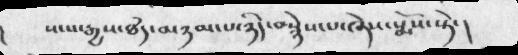།    སངས་རྒྱས་ཐཾད་མཉམ་པ་ཉིད་བསྙེས་པ་ཞེས་སྨོས་སྟེ་།
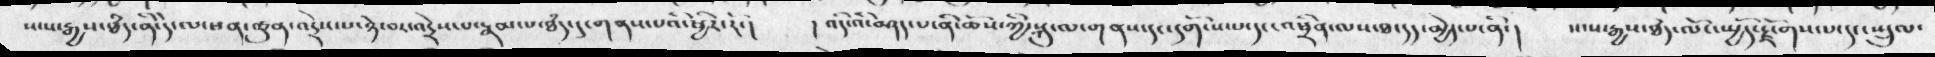སངས་རྒྱས་ཐཾད་ནི་དེ་ལ་ཕན་ཚུན་འདྲེས་པ་ཉེ་བར་འདྲེས་པ་རྣམ་པ་ཐཾད་དུ་གནས་པའི་ཕྱིར་རོ་།   །  འདིའི་བཤད་པ་ནི་ཆོས་ཀྱི་སྐུ་ལ་གནས་དང་དགོངས་པ་དང་འཕྲིན་ལས་ཐ་དད་མྱེད་པ་ནི་།   སངས་རྒྱས་ཐཾད་ལོང་སྤྱོད་རྫོགས་པ་དང་སྤྲུལ་
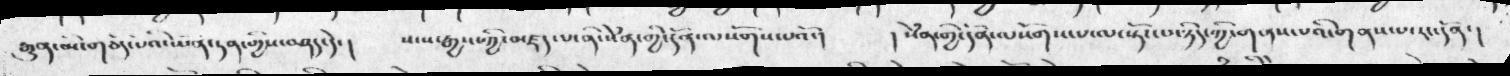རྒྱུན་མི་གཅོད་པའི་ཡོན་ཏན་གྱིས་བཤད་དེ་།  སངས་རྒྱས་ཀྱི་མཛད་པ་ནི་སེཾན་གྱི་དོན་ལསོགས་པའོ་།   ། སེཾན་གྱི་དོན་ལསོགས་པ་ལ་སྟོང་པ་ཉིད་ཀྱི་གནས་པའི་གནས་པ་རང་དོན་།
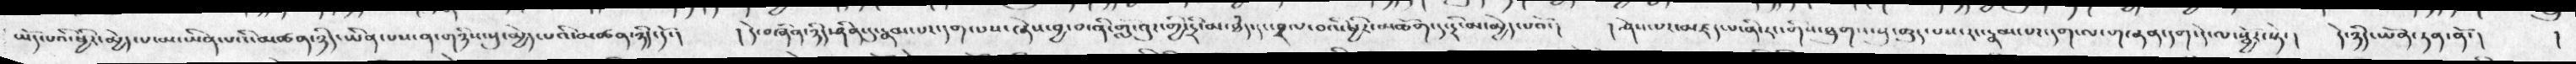ཡོད་པའི་ཕྱིར་མྱེད་པ་མ་ཡིན་པའི་མཚན་ཉིད་ཡིན་པས་ན་གཉིས་སུ་མྱེད་པའི་མཚན་ཉིད་དོ་།   ། དེ་བཞིན་ཉིད་ཤིན་དུ་རྣམ་པར་དག་པས་ཞེས་བྱ་བ་ནི་གློ་འུར་གྱི་དྲི་མ་ཐཾད་དང་བྲལ་བའི་ཕྱིར་མཆོག་དུ་དྲི་མ་མྱེད་པའོ་།  །ཤེས་པར་མཛད་པ་ནི་རང་གིས་ཐུགས་སུ་ཆུད་པས་རང་རྣམ་པར་དག་ལ་གཞན་དག་དེ་སྦྱོར་སྟེ་།   དེ་ཉིད་ཡོན་ཏན་ནོ་།    །
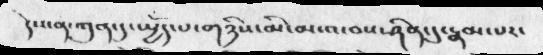དེས་ན་ཀུན་དུ་སྤྱོད་པ་གཉིས་མི་མངའ་བས་ཤིན་དུ་རྣམ་པར་
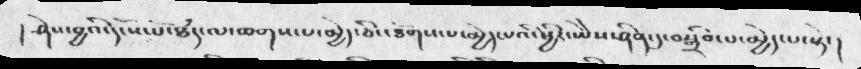།  ཤེས་བྱའི་དངོས་པོ་ཐཾད་ལ་ཆགས་པ་མྱེད་ཅིང་ཐོགས་པ་མྱེད་པའི་ཕྱིར་ཡེེས་ཤིན་དུ་བསྒྲིབ་པ་མྱེད་པ་སྟེ་།
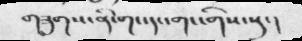གཟུགས་ནི་གང་དང་གང་གིས་སུ་།
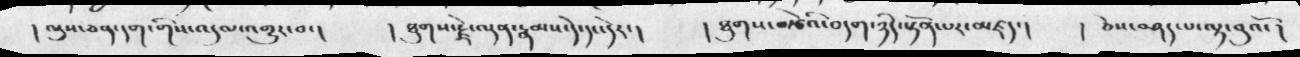། ལུས་ཅན་དག་གིས་འདུལ་འགྱུར་བ་།   ། ཐུགས་རྗེ་ལྡན་རྣམས་དེ་དང་དེར་།   ། ཐུགས་བརྩེའི་བདག་ཉིད་སྟོན་པར་མཛད་།   །  ཅེས་བཤད་པ་ལྟ་བུའོ་།
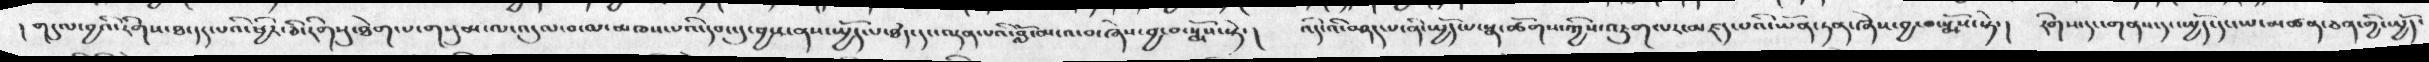།  གདུལ་བྱའི་རིགས་ཐ་དད་པའི་ཕྱིར་ཅི་རིགསུ་ཐེག་པ་གསུམ་ལ་འདུལ་བ་མ་མཁས་པའི་དབང་དུ་བྱས་ནས་སྤྱོད་པ་ཐྃད་དང་ལྡན་པའི་བློ་མངའ་བ་ཞེས་བྱ་བ་སྨོས་སྟེ་།  འདི་འི་བཤད་པ་ནི་སྤྱོད་པ་སྣ་ཚོགས་ཀྱིས་འཇུག་པར་མཛད་པའི་ཡོན་ཏན་ཞེས་བྱ་བ་སྨོས་སྟེ་།   རིགས་དང་གནས་དང་སྤྱོད་དང་ཡ་མཚན་ཅན་གྱི་སྤྱོད་
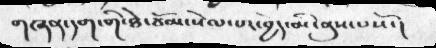གཞན་དག་གི་ཐེ་ཚོམ་སེལ་པར་བྱེད་མི་ནུས་པསོ་།
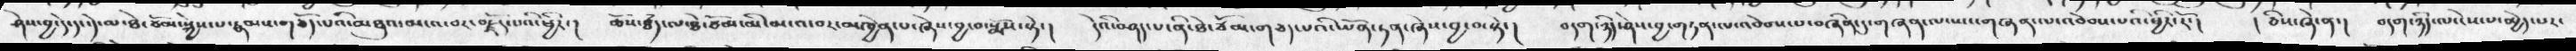ཤེས་བྱ་དེ་དང་དེ་ལ་ཐེ་ཚོམ་སྐྱེས་པ་རྣམས་གཅོད་པའི་མཐུའ་མངའ་བར་བརྗོད་པའི་ཕྱིར་།   ཆོས་ཐཾད་ལ་ཐེ་ཚོམ་མི་མངའ་བར་མཁྱེན་པ་ཞེས་བྱ་བ་སྨོས་སྟེ་།    དེའི་ནད་པ་ནི་ཐེ་ཚོམ་གཅད་པའི་ཡོན་ཏན་ཞེས་བྱ་བ་སྟེ་།   བདག་ཉིད་ཞེས་བྱ་གཏན་ལ་འབེབས་པ་བཞིན་དུ་གཞན་ལ་ཡང་གཞན་ལ་འབེབས་པའི་ཕྱིར་རོ་།   ། ཅིས་ཞེ་ན་།   བདག་ཉིད་ལ་ངེས་པ་མྱེད་པར་
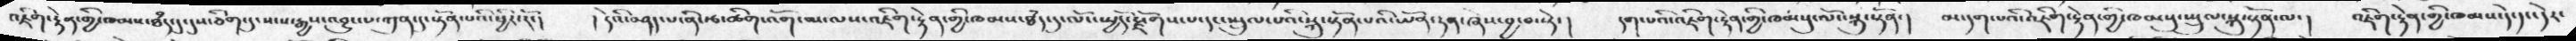འཇིག་རྟེན་གྱི་ཁམས་ཐཾད་དུ་དུས་ཅིག་དུ་སངས་རྒྱས་འབྱུང་པ་ཀུན་དུ་སྟོན་པའི་ཕྱིར་རོ་།  ། དེའི་བཤད་པ་ནི་རྩ་ཚིག་འོག་མ་ལས་འཇིག་རྟེན་གྱི་ཁམས་ཐཾད་དུ་ལོང་སྤྱོད་རྫོགས་པ་དང་སྤྲུལ་པའི་སྐུ་སྟོན་པའི་ཡོན་ཏན་ཞེས་བྱ་བ་སྟེ་།  དག་པའི་འཇིག་རྟེན་གྱི་ཁམསུ་ལོང་སྐུ་སྟོན་།   མ་དག་པའི་འཇིག་རྟེན་གྱི་ཁམསུ་སྤྲུལ་སྐུ་སྟོན་ལ་།  འཇིག་རྟེན་གྱི་ཁམས་དེ་དང་དེར་
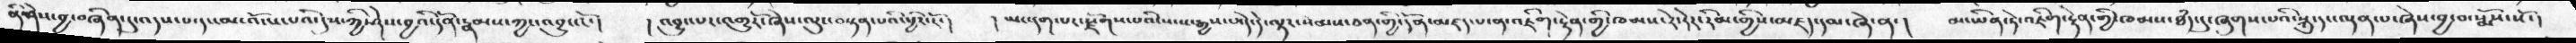ནི་ཤེས་བྱ་བཞིན་དུ་འདས་པ་དང་མ་འོངས་པའི་དུས་ཀྱི་ཤེས་བྱའི་དོན་རྣམས་ཀྱང་འབྱུང་ངོ་།   ། འབྱུང་པར་འགྱུརོ་ཞེས་ལུང་བསྟན་པའི་ཕྱིར་རོ་།  ། ཡང་དག་པར་རྫོགས་པའི་སངས་རྒྱས་ཡོད་དེ་ལྟར་སེམས་ཅན་གྱི་དོན་མཛད་པ་ན་འཇིག་རྟེན་གྱི་ཁམས་རེ་དེར་རིམ་གྱིས་མཛད་དམ་ཞེ་ན་།   མ་ཡིན་ཏེ་འཇིག་རྟེན་གྱི་ཁམས་ཐཾད་དུ་ཞུགས་པའི་སྐུ་དང་ལྡན་པ་ཞེས་བྱ་བ་སྨོས་སོ་།
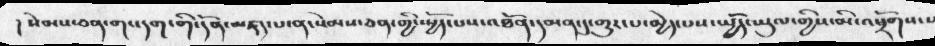། སེམས་ཅན་གང་དག་གི་དོན་མཛད་པ་ན་སེམས་ཅན་གྱི་སྤྱོད་པས་འཐོན་དམན་དུ་གྱུར་པ་མྱེད་པས་སྤྱོད་ཡུལ་གྱིས་མི་འཕྲོགས་པ
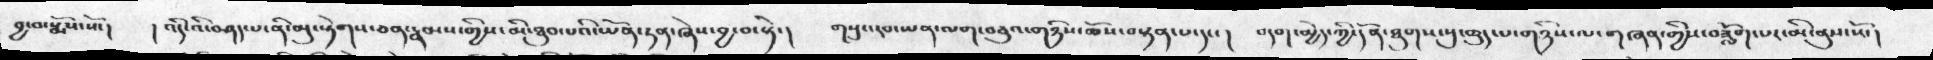བྱ་བ་སྨོས་སོ་།  ། འདི་འི་བཤད་པ་ནི་མུ་སྟེགས་ཅན་རྣམས་གྱིས་མི་ཐུབ་པའི་ཡོན་ཏན་ཞེས་བྱ་བ་སྟེ་།   གསུང་རབ་ཡན་ལག་བཅུ་གཉིས་ཆོས་བསྟན་པ་དང་།   བདག་མྱེད་ཀྱི་དོན་ཐུགས་སུ་ཆུད་པ་གཉིས་ལ་གཞན་གྱིས་བཟློག་པར་མི་ནུས་སོ་།
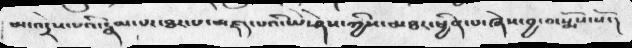མ་འདྲེས་པའི་རྣམ་པར་ཐར་པ་མཛད་པའི་ཡེ་ཤེས་ཀྱིས་མཐར་ཕྱིན་པ་ཞེས་བྱ་བ་སྨོས་སོ་།
